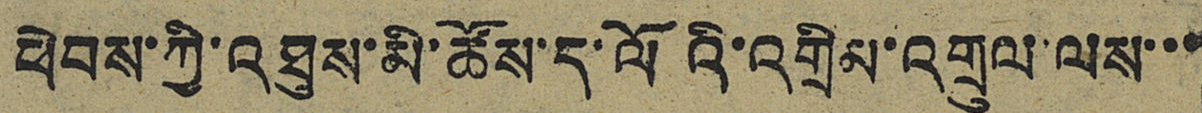ཕེབས་ཀྱི་འཐུས་མི་ཚོས་ད་ལོའི་འགྲིམ་འགྲུལ་ལས་་་
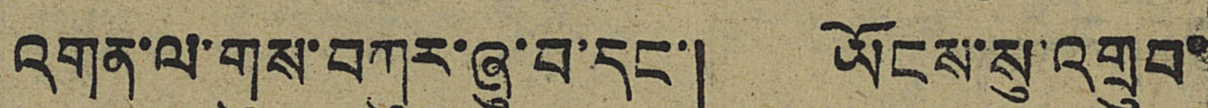འགན་ལ་གུས་བཀུར་ཞུ་བ་དང་། ཡོངས་སུ་འགྲུབ་
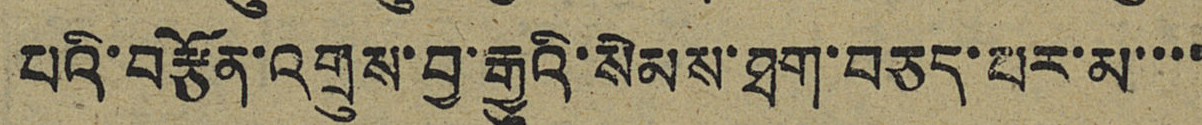པའི་བརྩོན་འགྲུས་བྱ་རྒྱུའི་སེམས་ཐག་ཅད་པར་མ་་་་
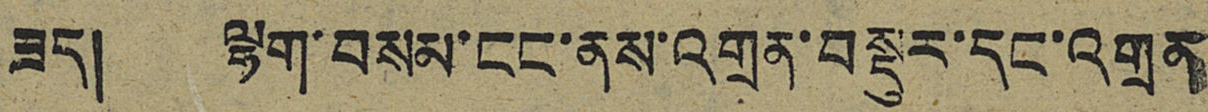ཟད། ལྷག་བསམ་ངང་ནས་འགྲན་བསྡུར་དང་འགྲན
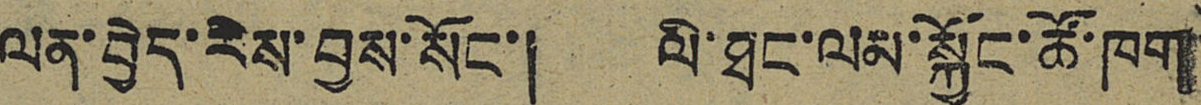ལན་བྱེད་རེས་བྱས་སོང་། ལི་ཐང་ལམ་སྐྱོང་ཚོ་ཁག
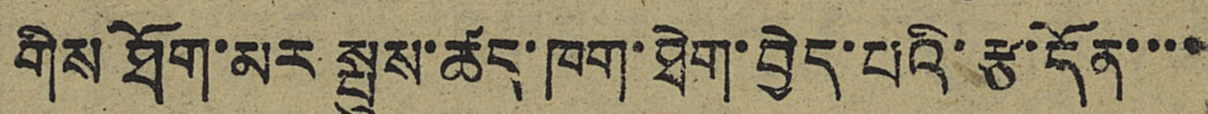གིས ཐོག་མར སྤུས་ཚད་ཁག་ཐེག་བྱེད་པའི་རྩ་དོན་་་་
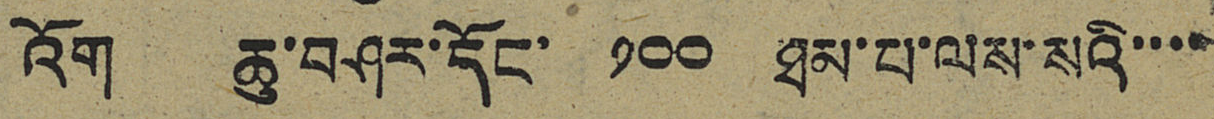འོག ཆུ་བཤར་དོང་ ༡༠༠ ཐམ་པ་ལས་སའི་་་་
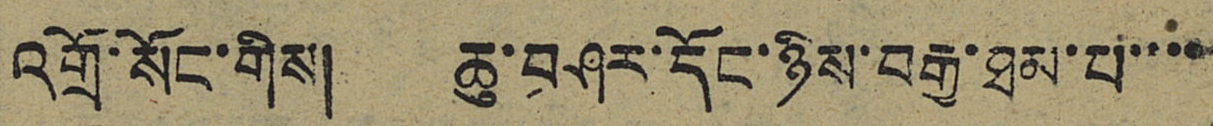འགྲོ་སོང་གིས། ཆུ་བཤར་དོང་ཉིས་བརྒྱ་ཐམ་པ་་་་
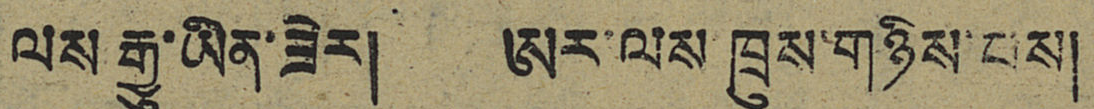ལས རྒྱུ་ཡིན་ཟེར། ཨར་ལས ཁྲུས་གཉིས་པས།
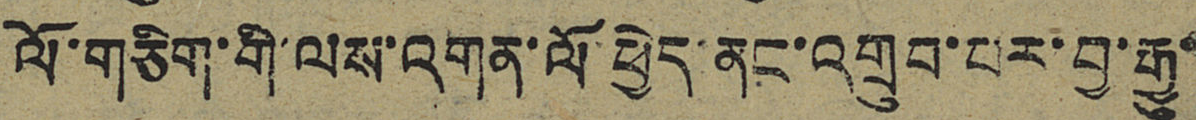ལོ་གཅིག་གི་ལས་འགན་ལོ་ཕྱེད་ནང་འགྲུབ་པར་བྱ་རྒྱུ་
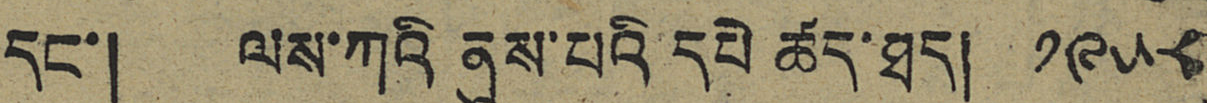དང་། ལས་ཀའི ནུས་པའི དཔེ ཚད་ཐད། ༡༩༥༨
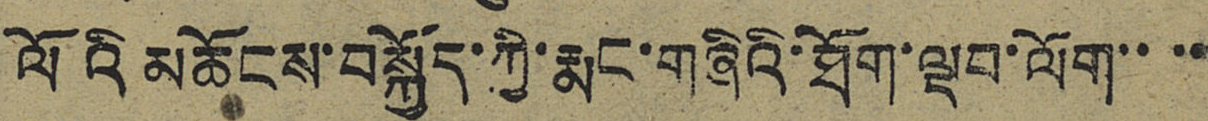ལོའི་མཆོངས་བསྐྱོད་ཀྱི་རྨང་གཞིའི་ཐོག་ལྡབ་ལོག་་་་
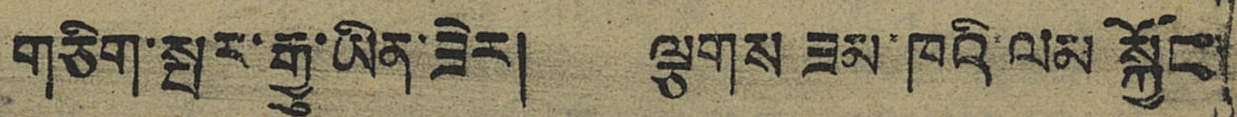གཅིག་སྤར་རྒྱུ་ཡིན་ཟེར། ལྕགས ཟམ་ཁའི་ལམ སྐྱོང
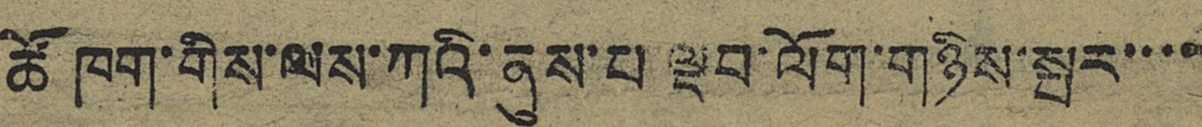ཚོ་ཁག་གིས་ལས་ཀའི་ནུས་པ ལྡབ་ལོག་གཉིས་སྤར་་་་
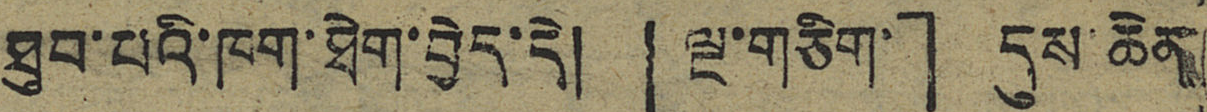ཐུབ་པའི་ཁག་ཐེག་བྱེད་དེ། 「ལྔ་གཅིག་」དུས་ཆེན
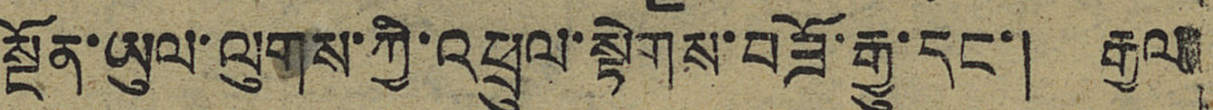སྔོན་ཡུལ་ལུགས་ཀྱི་འཕྲུལ་སྟེགས་བཟོ་རྒྱུ་དང་། རྒྱལ
